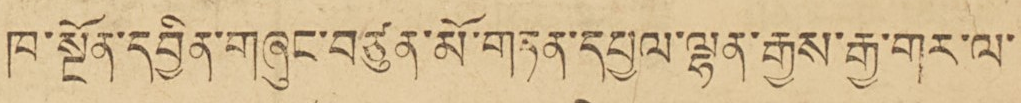ཁ་སྔོན་དབྱིན་གཞུང་བཙུན་མོ་གཏན་དཔྱལ་ལྷན་རྒྱས་རྒྱ་གར་ལ་
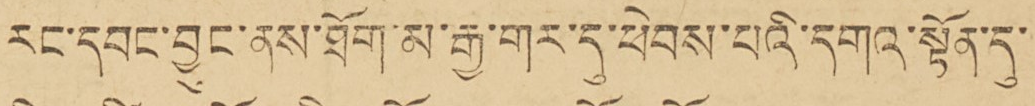རང་དབང་བྱུང་ནས་ཐོག་མ་རྒྱ་གར་དུ་ཕེབས་པའི་དགའ་སྟོན་དུ་
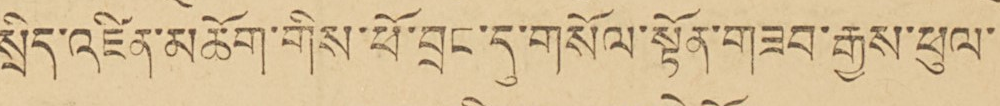སྲིད་འཛིན་མཆོག་གིས་ཕོ་བྲང་དུ་གསོལ་སྟོན་གཟབ་རྒྱས་ཕུལ་
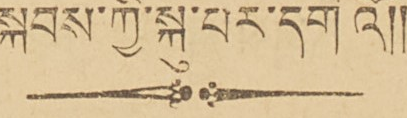སྐབས་ཀྱི་སྐུ་པར་དགེའོ།།
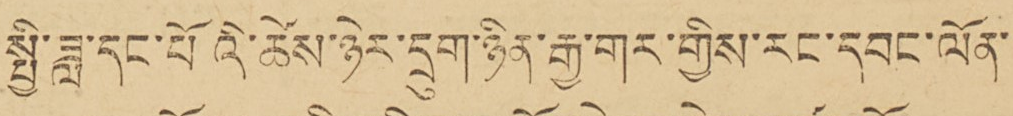སྤྱི་ཟླ་དང་པོའི་ཚེས་ཉེར་དྲུག་ཉིན་རྒྱ་གར་གྱིས་རང་དབང་ལོན་
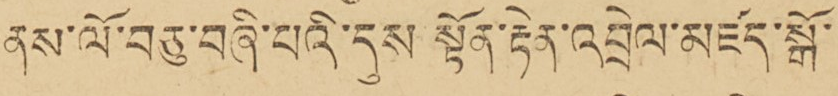ནས་ལོ་བཅུ་བཞི་པའི་དུས སྟོན་རྟེན་འབྲེལ་མཛད་སྒོ་
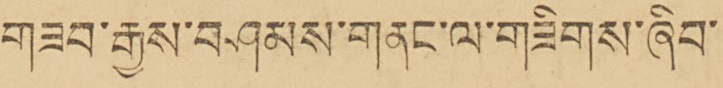གཟབ་རྒྱས་བཤམས་གནང་ལ་གཟིགས་ཞིབ་
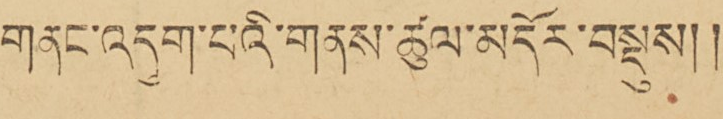གནང་འདུག་པའི་གནས་ཚུལ་མདོར་བསྡུས།།
